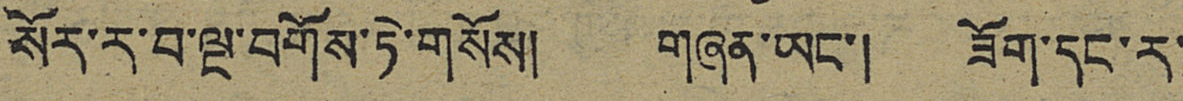སོར་ར་བ་ལྔ་བགོས་ཏེ་གསོས། གཞན་ཡང་། ཟོག་དང་ར་
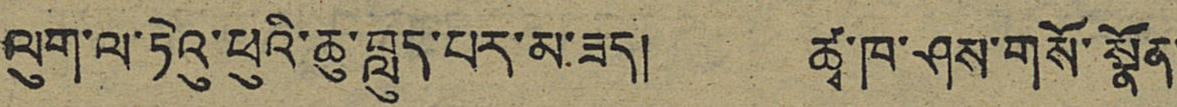ལུག་ལ་ཏེའུ་ཕུའི་ཆུ་བླུད་པར་མ་ཟད། ཚྭ་ཁ་ཤས་གསོ་སྣོན་
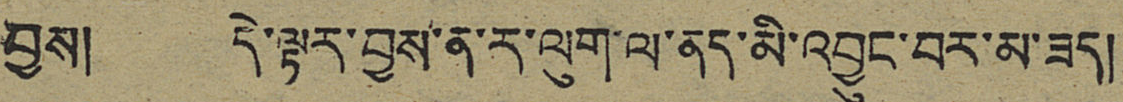བྱས། དེ་ལྟར་བྱས་ན་ར་ལུག་ལ་ནད་མི་འབྱུང་བར་མ་ཟད།
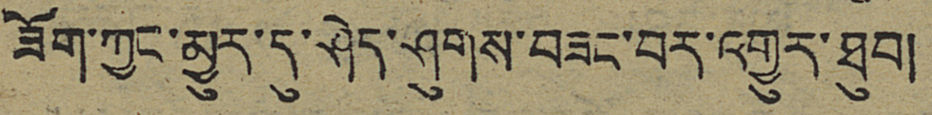ཟོག་ཀྱང་མྱུར་དུ་ཤེད་ཤུགས་བཟང་བར་འགྱུར་ཐུབ།
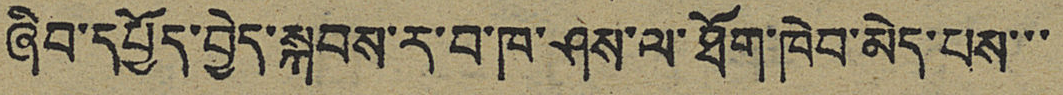ཞིབ་དཔྱོད་བྱེད་སྐབས་ར་བ་ཁ་ཤས་ལ་ཐོག་ཁེབ་མེད་པས་་་
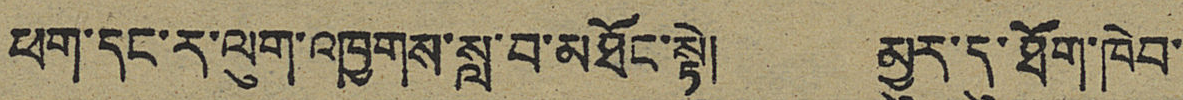ཕག་དང་ར་ལུག་འཁྱགས་སླ་བ་མཐོང་སྟེ། མྱུར་དུ་ཐོག་ཁེབ་
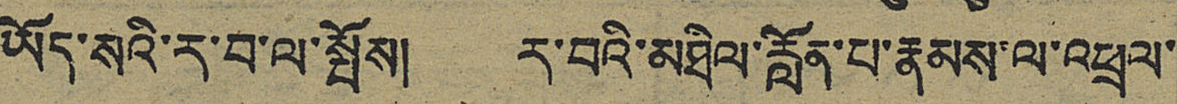ཡོད་སའི་ར་བ་ལ་སྤོས། ར་བའི་མཐིལ་རློན་པ་རྣམས་ལ་འཕྲལ་
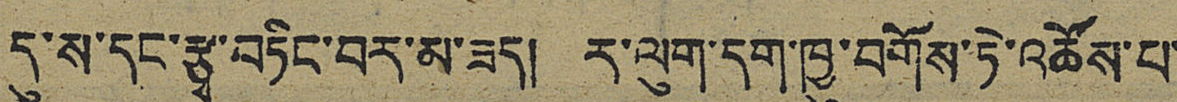དུ་ས་དང་རྩྭ་བཏིང་བར་མ་ཟད། ར་ལུག་དག་ཁྱུ་བགོས་ཏེ་འཚོས་པ་
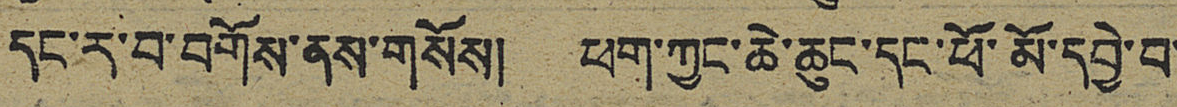དང་ར་བ་བགོས་ནས་གསོས། ཕག་ཀྱང་ཆེ་ཆུང་དང་ཕོ་མོ་དབྱེ་བ་
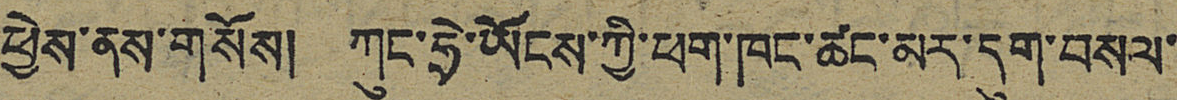ཕྱེས་ནས་གསོས། ཀུང་ཧྲེ་ཡོངས་ཀྱི་ཕག་ཁང་ཚང་མར་དུག་བསལ་
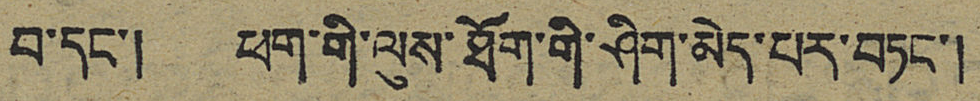བ་དང་། ཕག་གི་ལུས་ཐོག་གི་ཤིག་མེད་པར་བཏང་།
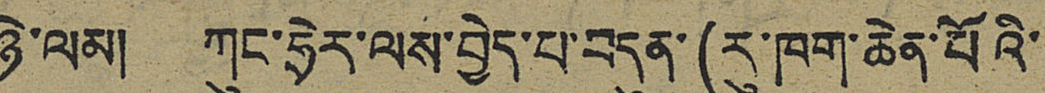ཉེ་ལམ། ཀུང་ཧྲེར་ལས་བྱེད་པ་བདུན་(རུ་ཁག་ཆེན་པོའི་
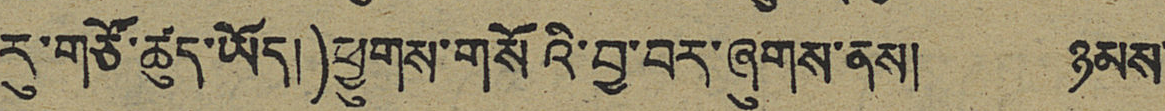རུ་གཙོ་ཚུད་ཡོད།)ཕྱུགས་གསོའི་བྱ་བར་ཞུགས་ནས། ཉམས་
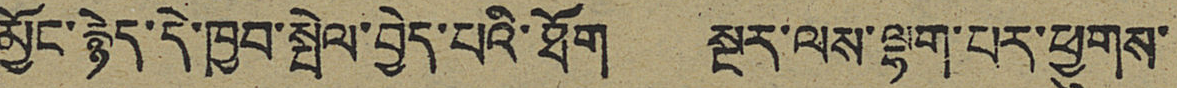མྱོང་རྙེད་དེ་ཁྱབ་སྤེལ་བྱེད་པའི་ཐོག སྔར་ལས་ལྷག་པར་ཕྱུགས་
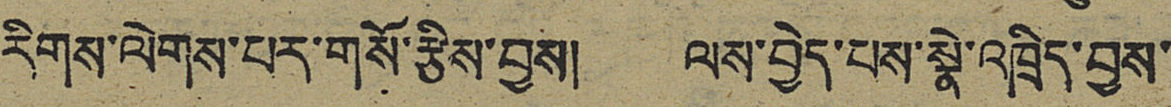རིགས་ལེགས་པར་གསོ་རྩིས་བྱས། ལས་བྱེད་པས་སྣེ་འཁྲིད་བྱས་
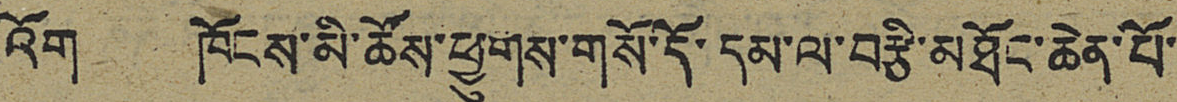འོག ཁོངས་མི་ཚོས་ཕྱུགས་གསོ་དོ་དམ་ལ་བརྩི་མཐོང་ཆེ་པོ་
